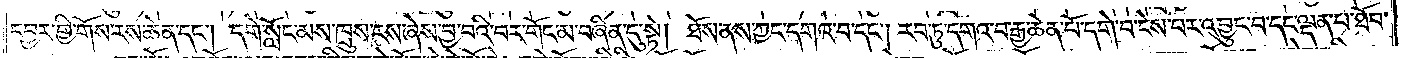དབྱར་གྱི་གོས་རས་ཆེན་དང༌། དགེ་སློང་མས་ཁྲུས་རས་ཞེས་བྱ་བའི་བར་གོང་མ་བཞིན་དུ་སྟེ། ཐོས་ནས་ཀྱང་དགའ་བ་དང༌། རབ་ཏུ་དགའ་བ་རྒྱ་ཆེན་པོ་དགེ་བ་ངེས་པར་འབྱུང་བ་དང་ལྡན་པ་ཐོབ་
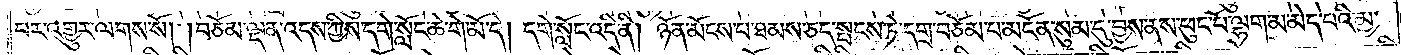པར་འགྱུར་ལགས་སོ། །བཅོམ་ལྡན་འདས་ཀྱིས་དགེ་སློང་ཆེ་གེ་མོ་དེ། དགེ་སློང་འདི་ནི། ཉོན་མོངས་པ་ཐམས་ཅད་སྤངས་ཏེ་དགྲ་བཅོམ་པ་མངོན་སུམ་དུ་བྱས་ནས་ཕུང་པོ་ལྷག་མ་མེད་པའི་མྱ་
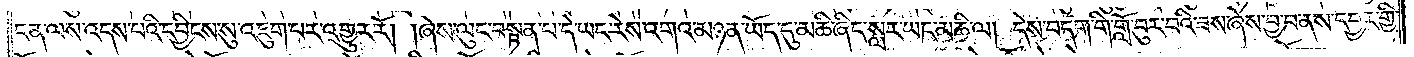ངན་ལས་འདས་པའི་དབྱིངས་སུ་འཇུག་པར་འགྱུར་རོ། །ཞེས་ལུང་བསྟན་པ་དེ་ཡང་རེས་འགའ་མཉན་ཡོད་དུ་མཆི་ཞིང་སླར་ཡང་མཆི་ལ། དེས་བདག་གི་གློ་བུར་བའི་ཟས་ཞེས་བྱ་བ་ནས་དབྱར་གྱི་
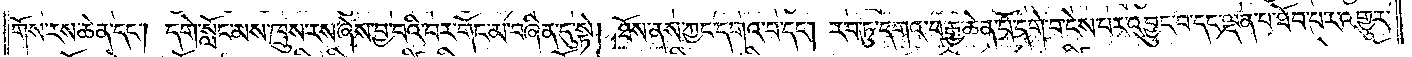གོས་རས་ཆེན་དང༌། དགེ་སློང་མས་ཁྲུས་རས་ཞེས་བྱ་བའི་བར་གོང་མ་བཞིན་དུ་སྟེ། ཐོས་ནས་ཀྱང་དགའ་བ་དང༌། རབ་ཏུ་དགའ་བ་རྒྱ་ཆེན་པོ་དགེ་བ་ངེས་པར་འབྱུང་བ་དང་ལྡན་པ་ཐོབ་པར་འགྱུར་
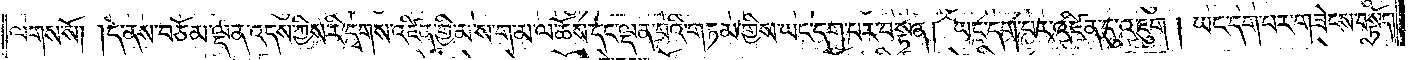ལགས་སོ། །དེ་ནས་བཅོམ་ལྡན་འདས་ཀྱིས་རི་དྭགས་འཛིན་གྱི་མ་ས་ག་མ་ལ་ཆོས་དང་ལྡན་པའི་གཏམ་གྱིས་ཡང་དག་པར་བསྟན། ཡང་དག་པར་འཛིན་དུ་འཇུག །ཡང་དག་པར་གཟེངས་བསྟོད།
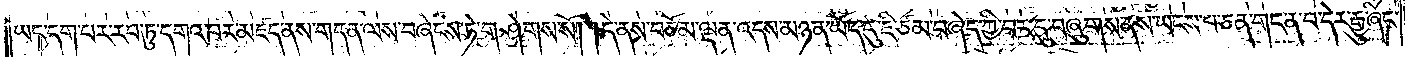ཡང་དག་པར་རབ་ཏུ་དགའ་བར་མཛད་ནས་གདན་ལས་བཞེངས་ཏེ་གཤེགས་སོ། །དེ་ནས་བཅོམ་ལྡན་འདས་མཉན་ཡོད་དུ་ཇི་ཙམ་བཞེད་ཀྱི་བར་དུ་བཞུགས་ནས་ཡངས་པ་ཅན་གང་ན་བ་དེར་རྒྱུ་ཞིང་
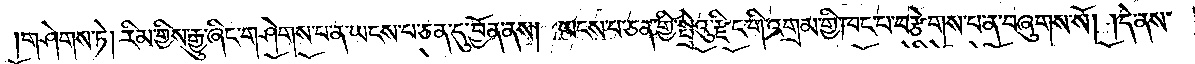གཤེགས་ཏེ། རིམ་གྱིས་རྒྱུ་ཞིང་གཤེགས་པ་ན་ཡངས་པ་ཅན་དུ་བྱོན་ནས། ཡངས་པ་ཅན་གྱི་སྤྲེའུ་རྫིང་གི་འགྲམ་གྱི་ཁང་པ་བརྩེགས་པ་ན་བཞུགས་སོ། །དེ་ནས་
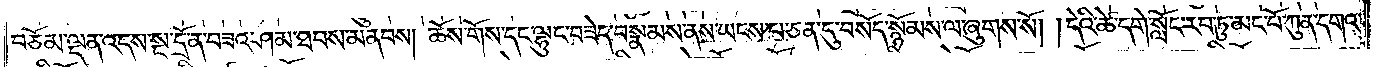བཅོམ་ལྡན་འདས་སྔ་དྲོ་ན་བཟའ་བཤམ་ཐབས་མནམས། ཆོས་གོས་དང་ལྷུང་བཟེད་བསྣམས་ནས་ཡངས་པ་ཅན་དུ་བསོད་སྙོམས་ལ་ཞུགས་སོ། །དེའི་ཚེ་དགེ་སློང་རབ་ཏུ་མང་པོ་ཀུན་དགའ་
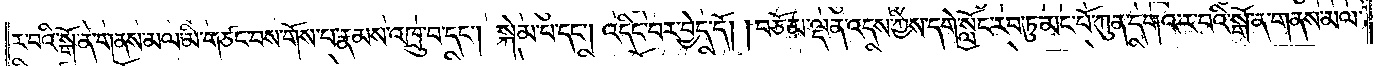ར་བའི་སྒོ་ན་གནས་མལ་མི་གཙང་བས་གོས་པ་རྣམས་འཁྲུ་བ་དང༌། སྐེམ་པ་དང༌། འདིང་བར་བྱེད་དོ། །བཅོམ་ལྡན་འདས་ཀྱིས་དགེ་སློང་རབ་ཏུ་མང་པོ་ཀུན་དགའ་ར་བའི་སྒོ་ན་གནས་མལ་
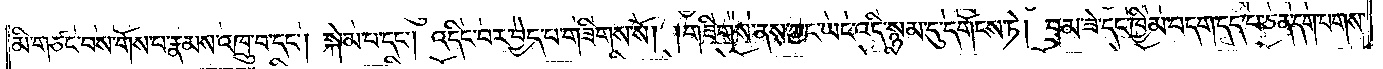མི་གཙང་བས་གོས་པ་རྣམས་འཁྲུ་བ་དང༌། སྐེམ་པ་དང༌། འདིང་བར་བྱེད་པ་གཟིགས་སོ། །གཟིགས་ནས་ཀྱང་ཡང་འདི་སྙམ་དུ་དགོངས་ཏེ། བྲམ་ཟེ་དང་ཁྱིམ་བདག་དད་པ་ཅན་དག་པགས་
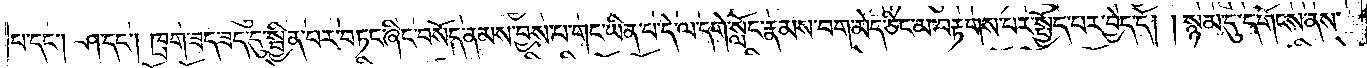པ་དང༌། ཤ་དང༌། ཁྲག་ཟད་ཟད་དུ་སྦྱིན་པར་བཏང་ཞིང་བསོད་ནམས་བྱས་པ་གང་ཡིན་པ་དེ་ལ་དགེ་སློང་རྣམས་བག་མེད་ཅིང་མ་བརྟགས་པར་སྤྱོད་པར་བྱེད་དོ། །སྙམ་དུ་དགོངས་ནས་
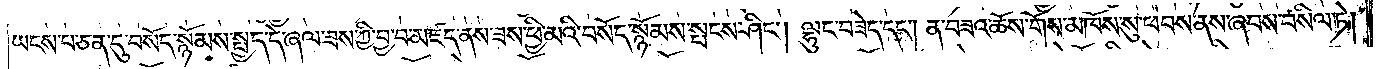ཡངས་པ་ཅན་དུ་བསོད་སྙོམས་སྤྱད་དེ་ཞལ་ཟས་ཀྱི་བྱ་བ་མཛད་ནས་ཟས་ཕྱི་མའི་བསོད་སྙོམས་སྤངས་ཤིང༌། ལྷུང་བཟེད་དང༌། ན་བཟའ་ཆོས་གོས་མཁོས་སུ་ཕབས་ནས་ཞབས་བསིལ་ཏེ།
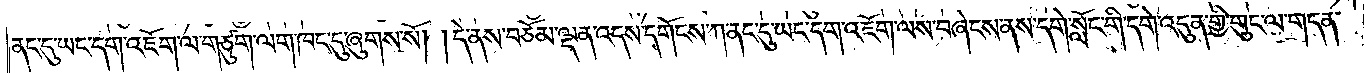ནང་དུ་ཡང་དག་འཇོག་ལ་གཙུག་ལག་ཁང་དུ་ཞུགས་སོ། །དེ་ནས་བཅོམ་ལྡན་འདས་དགོངས་ཀ་ནང་དུ་ཡང་དག་འཇོག་ལས་བཞེངས་ནས་དགེ་སློང་གི་དགེ་འདུན་གྱི་གུང་ལ་གདན་
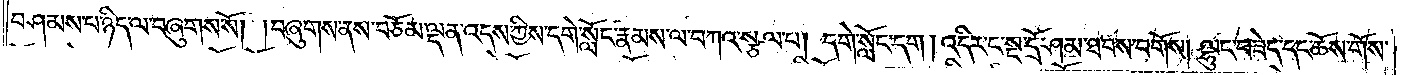བཤམས་པ་ཉིད་ལ་བཞུགས་སོ། །བཞུགས་ནས་བཅོམ་ལྡན་འདས་ཀྱིས་དགེ་སློང་རྣམས་ལ་བཀའ་སྩལ་པ། དགེ་སློང་དག །འདིར་སྔ་དྲོ་ཤམ་ཐབས་བགོས། ལྷུང་བཟེད་དང་ཆོས་གོས་
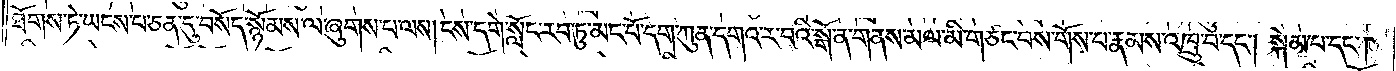ཐོགས་ཏེ་ཡངས་པ་ཅན་དུ་བསོད་སྙོམས་ལ་ཞུགས་པ་ལས། ངས་དགེ་སློང་རབ་ཏུ་མང་པོ་དག་ཀུན་དགའ་ར་བའི་སྒོ་ན་གནས་མལ་མི་གཙང་བས་གོས་པ་རྣམས་འཁྲུ་བ་དང༌། སྐེམ་པ་དང༌།
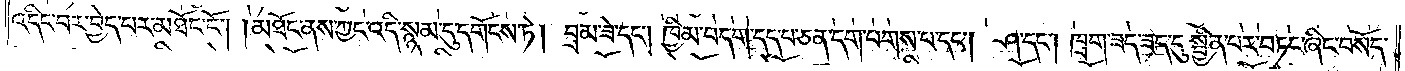འདིང་བར་བྱེད་པར་མཐོང་ངོ༌། །མཐོང་ནས་ཀྱང་འདི་སྙམ་དུ་དགོངས་ཏེ། བྲམ་ཟེ་དང༌། ཁྱིམ་བདག་དད་པ་ཅན་དག་པགས་པ་དང༌། ཤ་དང༌། ཁྲག་ཟད་ཟད་དུ་སྦྱིན་པར་བཏང་ཞིང་བསོད་
